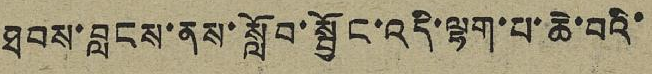ཐབས་བླངས་ནས་སློབ་སྦྱོང་འདི་ལྷག་པ་ཆེ་བའི་
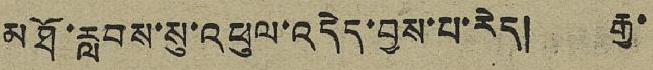མཐོ་རླབས་སུ་འཕུལ་འདེད་བྱས་པ་རེད། རྒྱ་
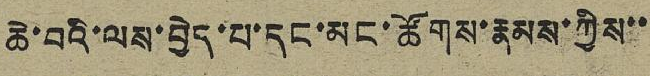ཆེ་བའི་ལས་བྱེད་པ་དང་མང་ཚོགས་རྣམས་ཀྱིས་་
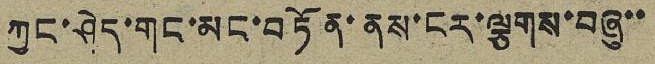ཀྱང་ཤེད་གང་མང་བཏོན་ནས་ངར་ལྕགས་བཞུ་་
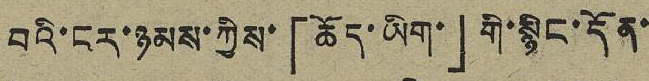བའི་ངར་ཉམས་ཀྱིས་「ཆོད་ཡིག་」གི་སྙིང་དོན་
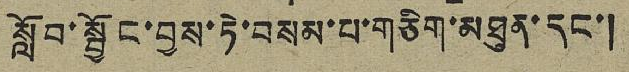སློབ་སྦྱོང་བྱས་ཏེ་བསམ་པ་གཅིག་མཐུན་དང་།
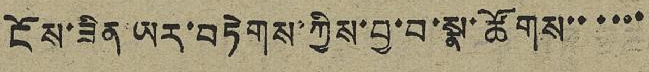ངོས་ཟིན་ཡར་བཏེགས་ཀྱིས་བྱ་བ་སྣ་ཚོགས་་་་་་
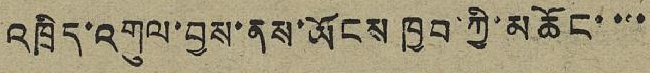འཁྲིད་འགུལ་བྱས་ནས་ཡོངས་ཁྱབ་ཀྱི་མཆོང་་་་
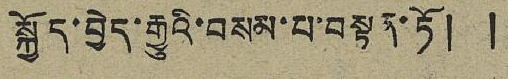སྐྱོད་བྱེད་རྒྱུའི་བསམ་པ་བསྟན་ཏོ། །
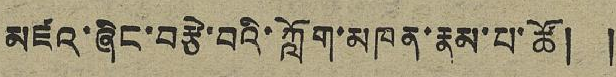མཛའ་ཞིང་བརྩེ་བའི་ཀློག་མཁན་རྣམ་པ་ཚོ། །
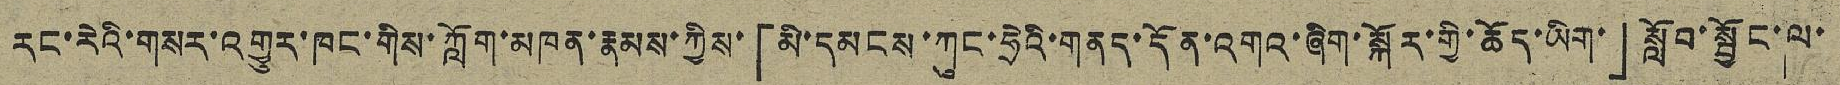རང་རེའི་གསར་འགྱུར་ཁང་གིས་ཀློག་མཁན་རྣམས་ཀྱིས་「མི་དམངས་ཀུང་ཧྲེའི་གནད་དོན་འགའ་ཞིག་སྐོར་གྱི་ཆོད་ཡིག་」སློབ་སྦྱོང་ལ་
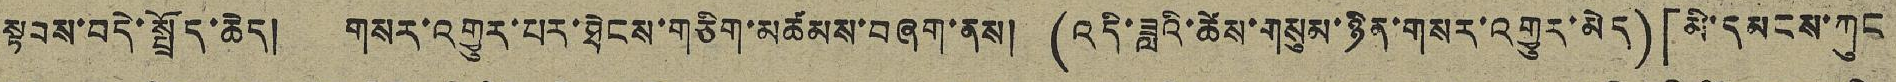སྟབས་བདེ་སྤྲོད་ཆེད། གསར་འགྱུར་པར་ཐེངས་གཅིག་མཚམས་བཞག་ནས། (འདི་ཟླའི་ཚེས་གསུམ་ཉིན་གསར་འགྱུར་མེད)「མི་དམངས་ཀུང
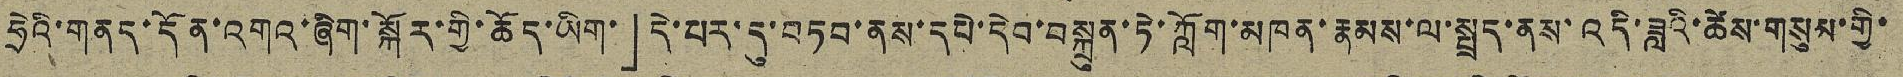ཧྲེའི་གནད་དོན་འགའ་ཞིག་སྐོར་གྱི་ཆོད་ཡིག་」དེ་པར་དུ་བཏབ་ནས་དཔེ་དེབ་བསྐྲུན་ཏེ་ཀློག་མཁན་རྣམས་ལ་སྤྲད་ནས་འདི་ཟླའི་ཚེས་གསུམ་གྱི་
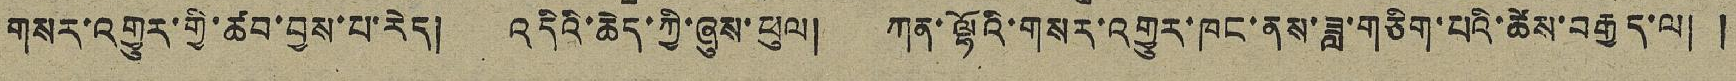གསར་འགྱུར་གྱི་ཚབ་བྱས་པ་རེད། འདིའི་ཆེད་ཀྱི་ཞུས་ཕུལ། ཀན་ལྷོའི་གསར་འགྱུར་ཁང་ནས་ཟླ་གཅིག་པའི་ཚེས་བརྒྱད་ལ། །
